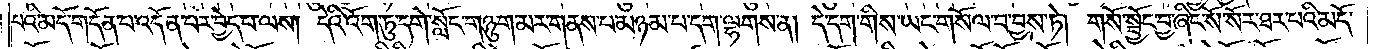པའི་མདོ་གདོན་པ་འདོན་པར་བྱེད་པ་ལས། དེའི་འོག་ཏུ་དགེ་སློང་གཉུག་མར་གནས་པ་མཉམ་པ་དག་ལྷགས་ན། དེ་དག་གིས་ཡང་གསོལ་བ་བྱས་ཏེ། གསོ་སྦྱོང་བྱ་ཞིང་སོ་སོར་ཐར་པའི་མདོ་
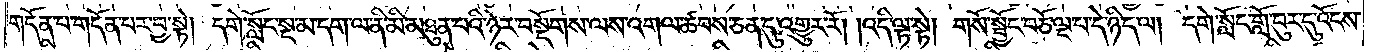གདོན་པ་གདོན་པར་བྱ་སྟེ། དགེ་སློང་སྔ་མ་དག་ལ་ནི་མི་མཐུན་པའི་ཉེར་བསྡོགས་ལས་འགལ་ཚབས་ཅན་དུ་འགྱུར་རོ། །འདི་ལྟ་སྟེ། གསོ་སྦྱོང་བཅོ་ལྔ་པ་དེ་ཉིད་ལ། དགེ་སློང་གློ་བུར་དུ་འོངས་
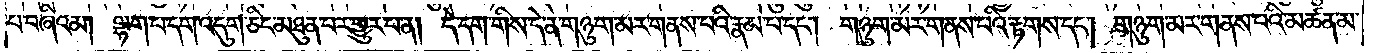པ་བཞིའམ། ལྷག་པ་དག་འདུག་ཅིང་མཐུན་པར་གྱུར་པ་ན། དེ་དག་གིས་དེ་ན་གཉུག་མར་གནས་པའི་རྣམ་པ་དང༌། གཉུག་མར་གནས་པའི་རྟགས་དང༌། གཉུག་མར་གནས་པའི་མཚན་མ་
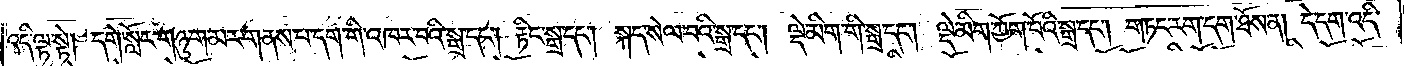འདི་ལྟ་སྟེ། དགེ་སློང་གཉུག་མར་གནས་པ་དག་གི་འཁར་བའི་སྒྲ་དང༌། རྟིང་སྒྲ་དང༌། སྐད་སེལ་བའི་སྒྲ་དང༌། ལྡེ་མིག་གི་སྒྲ་དང༌། ལྡེ་མིག་ཀྱོག་པོའི་སྒྲ་དང༌། གཏང་རག་དག་ཐོས་ན། དེ་དག་འདི་
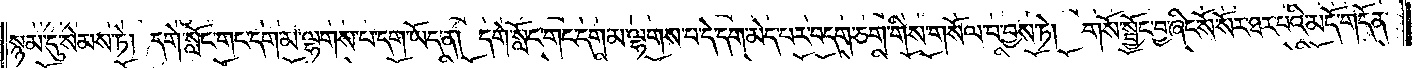སྙམ་དུ་སེམས་ཏེ། དགེ་སློང་གང་དག་མ་ལྷགས་པ་དག་ཡོད་ན། དགེ་སློང་གང་དག་མ་ལྷགས་པ་དེ་དག་མེད་པར་བདག་ཅག་གིས་གསོལ་བ་བྱས་ཏེ། གསོ་སྦྱོང་བྱ་ཞིང་སོ་སོར་ཐར་པའི་མདོ་གདོན་
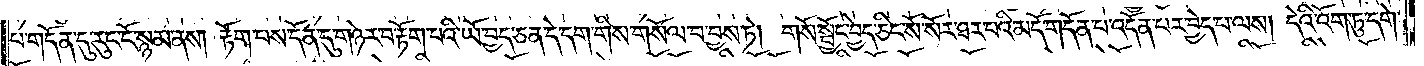པ་གདོན་དུ་རུང་ངོ་སྙམ་ནས། རྟོག་པས་དོན་དུ་གཉེར་བ་རྟོག་པའི་ཡོ་བྱད་ཅན་དེ་དག་གིས་གསོལ་བ་བྱས་ཏེ། གསོ་སྦྱོང་བྱེད་ཅིང་སོ་སོར་ཐར་པའི་མདོ་གདོན་པ་འདོན་པར་བྱེད་པ་ལས། དེའི་འོག་ཏུ་དགེ་
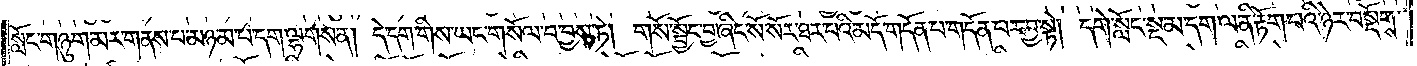སློང་གཉུག་མར་གནས་པ་མཉམ་པ་དག་ལྷགས་ན། དེ་དག་གིས་ཡང་གསོལ་བ་བྱས་ཏེ། གསོ་སྦྱོང་བྱ་ཞིང་སོ་སོར་ཐར་པའི་མདོ་གདོན་པ་གདོན་པར་བྱ་སྟེ། དགེ་སློང་སྔ་མ་དག་ལ་ནི་རྟོག་པའི་ཉེར་བསྡོགས་
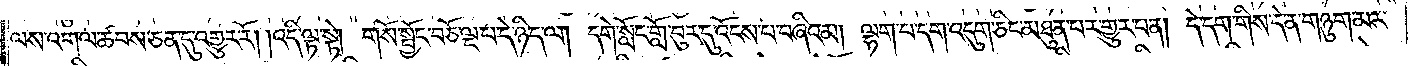ལས་འགལ་ཚབས་ཅན་དུ་འགྱུར་རོ། །འདི་ལྟ་སྟེ། གསོ་སྦྱོང་བཅོ་ལྔ་པ་དེ་ཉིད་ལ། དགེ་སློང་གློ་བུར་དུ་འོངས་པ་བཞིའམ། ལྷག་པ་དག་འདུག་ཅིང་མཐུན་པར་གྱུར་པ་ན། དེ་དག་གིས་དེ་ན་གཉུག་མར་
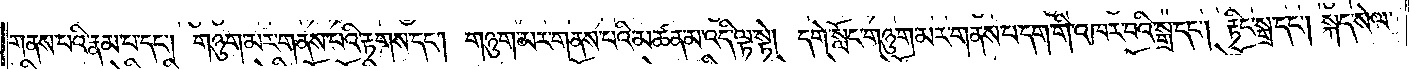གནས་པའི་རྣམ་པ་དང༌། གཉུག་མར་གནས་པའི་རྟགས་དང༌། གཉུག་མར་གནས་པའི་མཚན་མ་འདི་ལྟ་སྟེ། དགེ་སློང་གཉུག་མར་གནས་པ་དག་གི་འཁར་བའི་སྒྲ་དང༌། རྟིང་སྒྲ་དང༌། སྐད་སེལ་
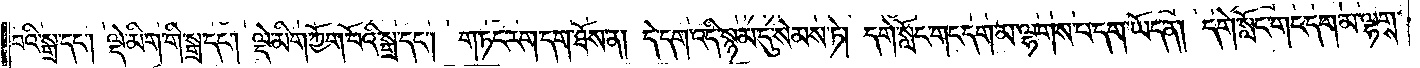བའི་སྒྲ་དང༌། ལྡེ་མིག་གི་སྒྲ་དང༌། ལྡེ་མིག་ཀྱོག་པོའི་སྒྲ་དང༌། གཏང་རག་དག་ཐོས་ན། དེ་དག་འདི་སྙམ་དུ་སེམས་ཏེ། དགེ་སློང་གང་དག་མ་ལྷགས་པ་དག་ཡོད་ན། དགེ་སློང་གང་དག་མ་ལྷགས་
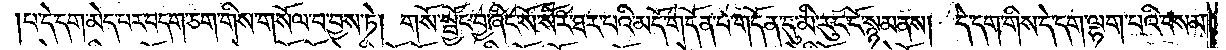པ་དེ་དག་མེད་པར་བདག་ཅག་གིས་གསོལ་བ་བྱས་ཏེ། གསོ་སྦྱོང་བྱ་ཞིང་སོ་སོར་ཐར་པའི་མདོ་གདོན་པ་གདོན་དུ་མི་རུང་ངོ་སྙམ་ནས། དེ་དག་གིས་དེ་དག་ལྷག་པའི་བསམ་
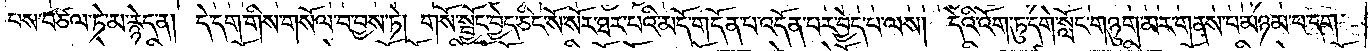པས་བཙལ་ཏེ་མ་རྙེད་ན། དེ་དག་གིས་གསོལ་བ་བྱས་ཏེ། གསོ་སྦྱོང་བྱེད་ཅིང་སོ་སོར་ཐར་པའི་མདོ་གདོན་པ་འདོན་པར་བྱེད་པ་ལས། དེའི་འོག་ཏུ་དགེ་སློང་གཉུག་མར་གནས་པ་མཉམ་པ་དག་
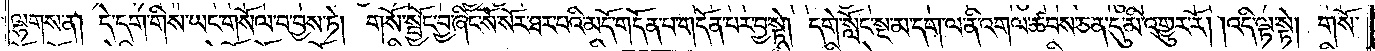ལྷགས་ན། དེ་དག་གིས་ཡང་གསོལ་བ་བྱས་ཏེ། གསོ་སྦྱོང་བྱ་ཞིང་སོ་སོར་ཐར་པའི་མདོ་གདོན་པ་གདོན་པར་བྱ་སྟེ། དགེ་སློང་སྔ་མ་དག་ལ་ནི་འགལ་ཚབས་ཅན་དུ་མི་འགྱུར་རོ། །འདི་ལྟ་སྟེ། གསོ་
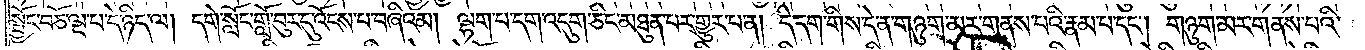སྦྱོང་བཅོ་ལྔ་པ་དེ་ཉིད་ལ། དགེ་སློང་གློ་བུར་དུ་འོངས་པ་བཞིའམ། ལྷག་པ་དག་འདུག་ཅིང་མཐུན་པར་གྱུར་པ་ན། དེ་དག་གིས་དེ་ན་གཉུག་མར་གནས་པའི་རྣམ་པ་དང༌། གཉུག་མར་གནས་པའི་
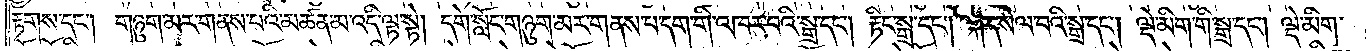རྟགས་དང༌། གཉུག་མར་གནས་པའི་མཚན་མ་འདི་ལྟ་སྟེ། དགེ་སློང་གཉུག་མར་གནས་པ་དག་གི་འཁར་བའི་སྒྲ་དང༌། རྟིང་སྒྲ་དང༌། སྐད་སེལ་བའི་སྒྲ་དང༌། ལྡེ་མིག་གི་སྒྲ་དང༌། ལྡེ་མིག་
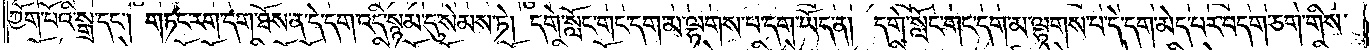ཀྱོག་པོའི་སྒྲ་དང༌། གཏང་རག་དག་ཐོས་ན་དེ་དག་འདི་སྙམ་དུ་སེམས་ཏེ། དགེ་སློང་གང་དག་མ་ལྷགས་པ་དག་ཡོད་ན། དགེ་སློང་གང་དག་མ་ལྷགས་པ་དེ་དག་མེད་པར་བདག་ཅག་གིས་
